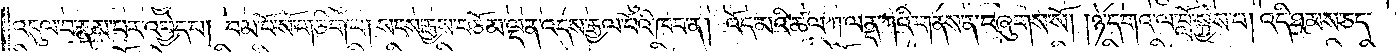འདུལ་བ་རྣམ་པར་འབྱེད་པ། བམ་པོ་སོ་གཅིག་པ། སངས་རྒྱས་བཅོམ་ལྡན་འདས་རྒྱལ་པོའི་ཁབ་ན། འོད་མའི་ཚལ་ཀ་ལནྡ་ཀའི་གནས་ན་བཞུགས་སོ། །ཉེ་དགའ་ལ་བློ་སྐྱེས་པ། འདི་ཐམས་ཅད་
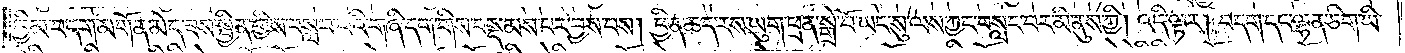ཁྱིམ་བདག་མགོན་མེད་ཟས་སྦྱིན་གྱིས་བསླབ་པའི་གཞི་དག་གིས་བསྡམས་པར་བྱས་པས། ཕྱིན་ཅད་རས་ཡུག་ཕྲན་སྒྲེ་བོ་ཡང་སུ་ལས་ཀྱང་བསླང་བར་མི་ནུས་ཀྱི། འདི་ལྟར། བདག་དང་ལྷན་ཅིག་ཡི་
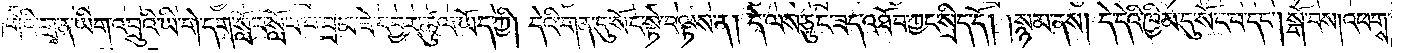གེའི་གྲྭ་ན་ཡིག་འབྲུའི་ཡི་གེ་དག་སློབ་སློབ་པ་བྲམ་ཟེ་དབྱར་ཚུལ་ཡོད་ཀྱི། དེའི་གན་དུ་སོང་སྟེ་བལྟས་ན། དེ་ལས་ཅུང་ཟད་འཐོབ་ཀྱང་སྲིད་དོ། །སྙམ་ནས། དེ་དེའི་ཁྱིམ་དུ་སོང་བ་དང༌། སྒོ་བས། འཕགས་
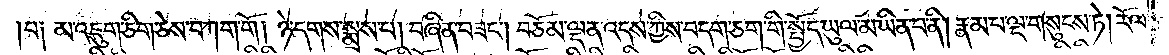པ༑ མ་འཇུག་ཅིག་ཅེས་བཀག་གོ ། ཉེ་དགས་སྨྲས་པ། བཞིན་བཟང༌། བཅོམ་ལྡན་འདས་ཀྱིས་བདག་ཅག་གི་སྤྱོད་ཡུལ་མ་ཡིན་པ་ནི། རྣམ་པ་ལྔ་གསུངས་ཏེ། རོལ་
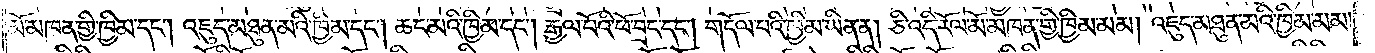མོ་མཁན་གྱི་ཁྱིམ་དང༌། འཇུད་མཐུན་མའི་ཁྱིམ་དང༌། ཆང་མའི་ཁྱིམ་དང༌། རྒྱལ་པོའི་ཕོ་བྲང་དང༌། གདོལ་བའི་ཁྱིམ་ཡིན་ན། ཅི་འདི་རོལ་མོ་མཁན་གྱི་ཁྱིམ་མམ། འཇུད་མཐུན་མའི་ཁྱིམ་མམ།
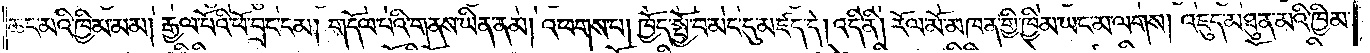ཆང་མའི་ཁྱིམ་མམ། རྒྱལ་པོའི་ཕོ་བྲང་ངམ། གདོལ་པའི་གནས་ཡིན་ནམ། འཕགས་པ། ཁྱོད་སྤྱོ་བ་མང་དུ་མཛད་དེ། འདི་ནི། རོལ་མོ་མཁན་གྱི་ཁྱིམ་ཡང་མ་ལགས། འཇུད་མཐུན་མའི་ཁྱིམ་
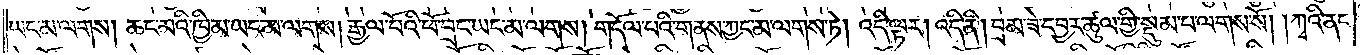ཡང་མ་ལགས། ཆང་མའི་ཁྱིམ་ཡང་མ་ལགས། རྒྱལ་པོའི་ཕོ་བྲང་ཡང་མ་ལགས། གདོལ་བའི་གནས་ཀྱང་མ་ལགས་ཏེ། འདི་ལྟར། འདི་ནི། བྲམ་ཟེ་དབྱར་ཚུལ་གྱི་སྡུམ་པ་ལགས་སོ། །ཀྭའི་ནང་
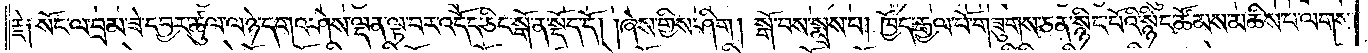རྗེ༑ སོང་ལ་བྲམ་ཟེ་དབྱར་ཚུལ་ལ་ཉེ་དགའ་ཤེས་ལྡན་ལྟ་བར་འདོད་ཅིང་སྒོ་ན་སྡོད་དོ། །ཞེས་གྱིས་ཤིག །སྒོ་བས་སྨྲས་པ། ཁྱོད་རྒྱལ་པོ་གཟུགས་ཅན་སྙིང་པོའི་སྙིང་ཚོམས་མཆིས་པ་ལགས་
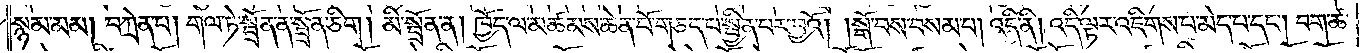སྙམ་མམ། བཀྲེན་པ། གལ་ཏེ་སྦྲོན་ན་སྦྲོན་ཅིག །མི་སྦྲོན་ན། ཁྱོད་ལ་མཚམས་ཆེན་པོ་གཅད་པ་སྦྱིན་པར་བྱའོ། །སྒོ་བས་བསམ་པ། འདི་ནི། འདི་ལྟར་འཇིགས་པ་མེད་པ་དང༌། བག་ཚ་
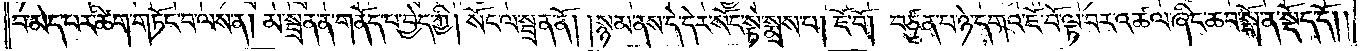བ་མེད་པར་ཚིག་གཏོང་བ་ལས་ན། མ་སྦྲན་ན་གནོད་པ་བྱེད་ཀྱི། སོང་ལ་སྦྲན་ནོ། །སྙམ་ནས་དེ་དེར་སོང་སྟེ་སྨྲས་པ། ཇོ་བོ། བཙུན་པ་ཉེ་དགའ་ཇོ་བོ་ལྟ་བར་འཚལ་ཞིང་ཆབ་སྒོ་ན་སྡོད་དོ། །
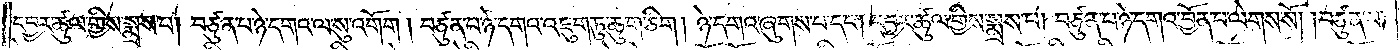དབྱར་ཚུལ་གྱིས་སྨྲས་པ། བཙུན་པ་ཉེ་དགའ་ལ་སུ་འགོག །བཙུན་པ་ཉེ་དགའ་འཇུག་ཏུ་ཆུག་ཅིག །ཉེ་དགའ་ཞུགས་པ་དང༌། དབྱར་ཚུལ་གྱིས་སྨྲས་པ། བཙུན་པ་ཉེ་དགའ་བྱོན་པ་ལེགས་སོ། །བཙུན་པ་
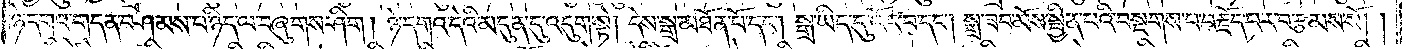ཉེ་དགའ་གདན་བཤམས་པ་ཉིད་ལ་བཞུགས་ཤིག །ཉེ་དགའ་དེའི་མདུན་དུ་འདུག་སྟེ། དེས་སྒྲ་མཐོན་པོ་དང༌། སྒྲ་ཡིད་དུ་འོང་བ་དང༌། སྒྲ་ཟབ་མོས་སྦྱིན་པའི་བསྔགས་པ་བརྗོད་པར་བརྩམས་སོ། །
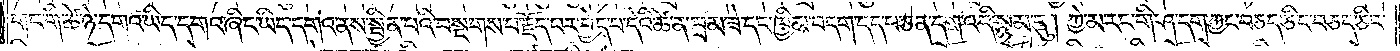གང་གི་ཚེ་ཉེ་དགའ་ཡིད་དགའ་ཞིང་ཡིད་དགའ་ནས་སྦྱིན་པའི་བསྔགས་པ་རྗོད་པར་བྱེད་པ་དེའི་ཚེ་ན་བྲམ་ཟེ་དང་ཁྱིམ་བདག་དད་པ་ཅན་དག་འདི་སྙམ་དུ། ཀྱེ་མ་རང་གི་ཤ་དག་ཀྱང་བཅད་ཅིང་བཅད་ཅིང་
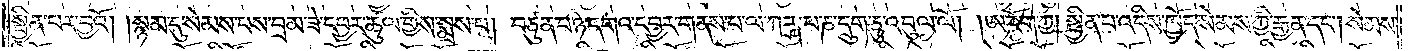སྦྱིན་པར་བྱའོ། །སྙམ་དུ་སེམས་པས་བྲམ་ཟེ་དབྱར་ཚུལ་གྱིས་སྨྲས་པ། བཙུན་པ་ཉེ་དགའ་དབྱར་གནས་པ་ལ་ཀཪྴ་པ་ཎ་དྲུག་ཅུ་འབུལ་ལོ། །ཨ་རོག་ཀྱ། སྦྱིན་པ་འདིས་ཁྱོད་སེམས་ཀྱི་རྒྱན་དང༌། སེམས་
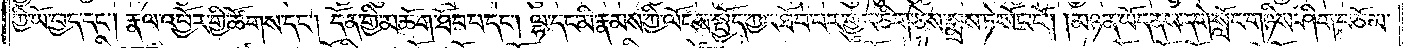ཀྱི་ཡོ་བྱད་དང༌། རྣལ་འབྱོར་གྱི་ཚོགས་དང༌། དོན་གྱི་མཆོག་ཐོབ་པ་དང༌། ལྷ་དང་མི་རྣམས་ཀྱི་ལོངས་སྤྱོད་ཀྱང་ཐོབ་པར་གྱུར་ཅིག་ཅེས་སྨྲས་ཏེ་སོང་ངོ༌། །མཉན་ཡོད་ནས་དགེ་སློང་གཉིས་ཤིག་བཅོམ་
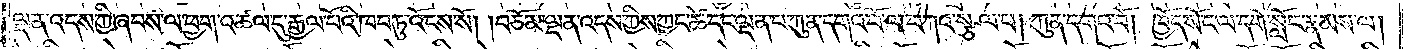ལྡན་འདས་ཀྱི་ཞབས་ལ་ཕྱག་འཚལ་དུ་རྒྱལ་པོའི་ཁབ་ཏུ་འོངས་སོ། །བཅོམ་ལྡན་འདས་ཀྱིས་ཀྱང་ཚེ་དང་ལྡན་པ་ཀུན་དགའ་བོ་ལ་བཀའ་སྩལ་པ། ཀུན་དགའ་བོ། ཁྱོད་སོང་ལ་དགེ་སློང་རྣམས་ལ།
